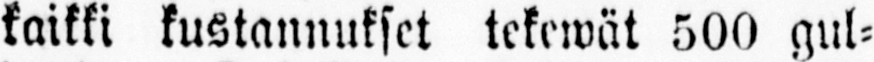kaikki kustannukset tekewät 500 gul-
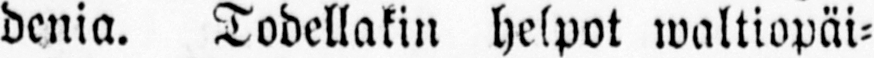denia. Todellakin helpot waltiopäi-
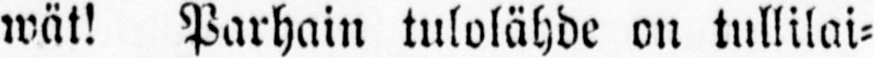wät! Parhain tulolähde on tullilai-
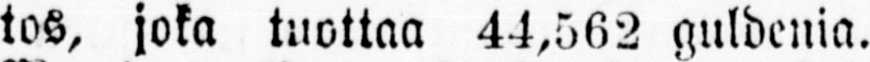tos, joka tuottaa 44,562 guldenia.
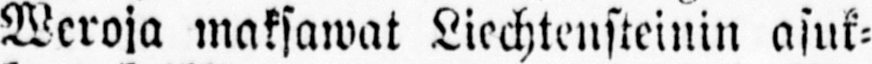Weroja maksawat Liechtensteinin asuk-
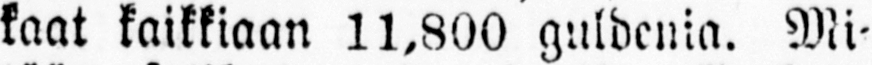kaat kaikkiaan 11,800 guldenia. Mi-
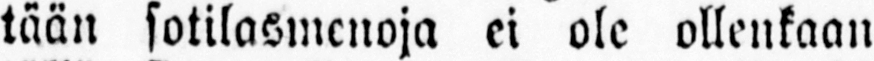tään sotilasmenoja ei ole ollenkaan
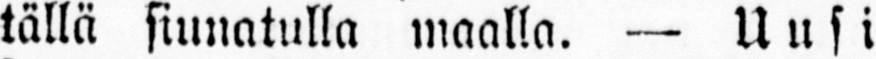tällä siunatulla maalla. — Uusi
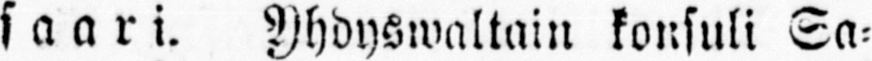saari. Yhdyswaltain konsuli Sa-
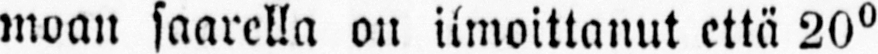moan saarella on ilmoittanut että 20°
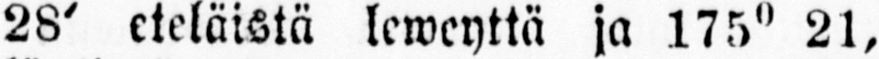28' eteläistä lewenyttä ja 175° 21,
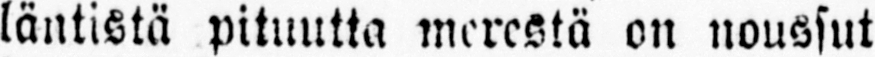läntistä pituutta merestä on noussut
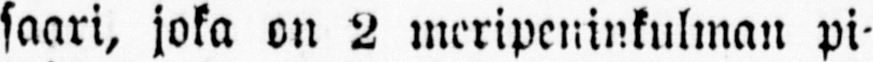saari, joka on 2 meripeninkulman pi-
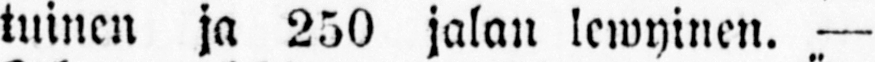tuinen ja 250 jalan lewyinen. —
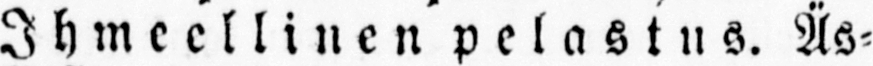Ihmeellinen pelastus. Äs-
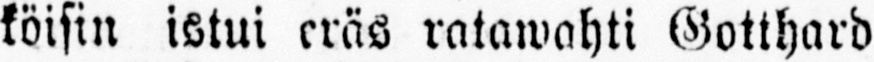köisin istui eräs ratawahti Gotthard
